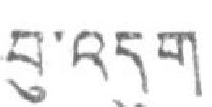བ་འདུག
